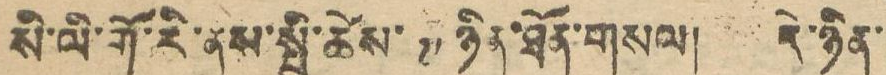སི་ལི་གོ་རི་ནས་སྤྱི་ཚེས་ ༧ ཉིན་ཐོན་གསལ། དེ་ཉིན་
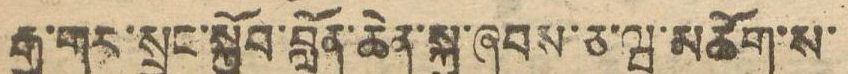རྒྱ་གར་སྲུང་སྐྱོབ་བློན་ཆེན་སྐུ་ཞབས་ཅ་ཝ་མཆོག་ས་
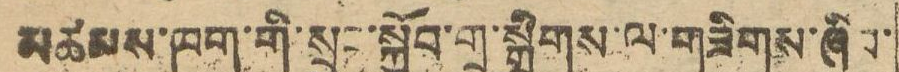མཚམས་ཁག་གི་སྲུང་སྐྱོབ་གྲ་སྒྲིགས་ལ་གཟིགས་ཞིབ་
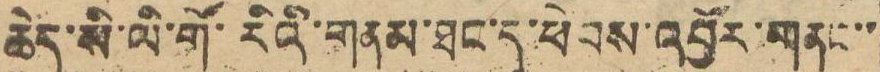ཆེད་སི་ལི་གོ་རིའི་གནམ་ཐང་དུ་ཕེབས་འབྱོར་གནང་་
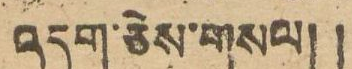འདུག་ཅེས་གསལ། །
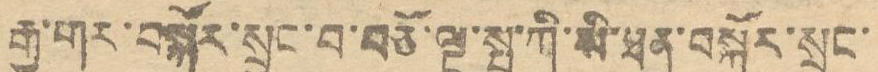རྒྱ་གར་བསྐོར་སྲུང་བ་བཅོ་ལྔ་སྤ་ཀི་སི་ཐན་བསྐོར་སྲུང་
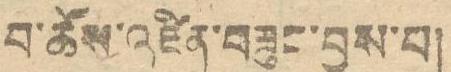བ་ཚོས་འཛིན་བཟུང་བྱས་པ།
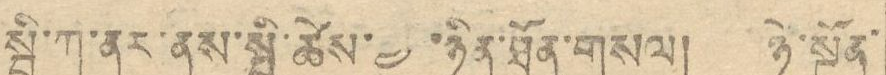སྦི་ཀ་ནར་ན་སྤྱི་ཚེས་ ༤ ཉིན་ཐོན་གསལ། ཉེ་སྔོན་
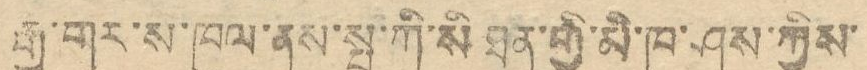རྒྱ་གར་ས་ཁུལ་ནས་སྤ་ཀི་སི་ཐན་གྱི་མི་ཁ་ཤས་ཀྱིས་
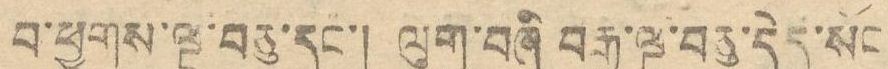བ་ཕྱུགས་ལྔ་བཅུ་དང་། ལུག་བཞི བརྒྱ་ལྔ་བཅུ་དེད་སོང
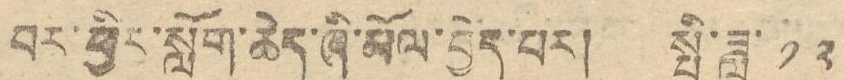བར་ཕྱིར་སློག་ཆེད་ཞི་མོལ་བྱེད་པར། སྤྱི་ཟླ་ ༡༢
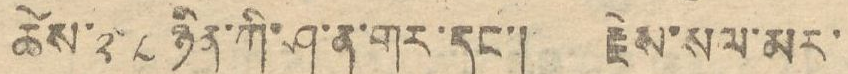ཚེས་ ༢༨ ཉིན་ཀི་ཤ་ན་གར་དང་། རྗེས་སལ་མར་
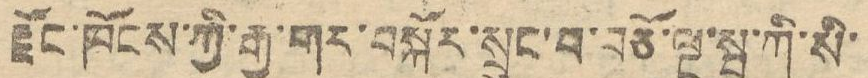རྫོང་ཁོངས་ཀྱི་རྒྱ་གར་བསྐོར་སྲུང་བ་བཅོ་ལྔ་སྤ་ཀི་སི་
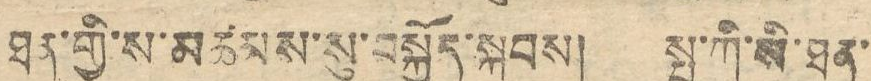ཐན་གྱི་ས་མཚམས་སུ་བསྐྱོད་སྐབས། སྤ་ཀི་སི་ཐན་
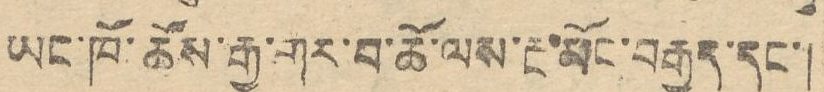ཡང་ཁོ་ཚོས་རྒྱ་གར་བ་ཆོ་ལས་རྔ་མོང་བརྒྱད་དང་།
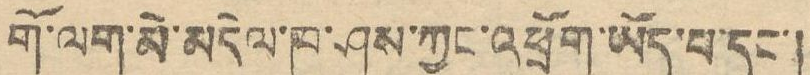གོ་ལག་མེ་མདེལ་ཁ་ཤས་ཀྱང་འཕྲོག་ཡོད་པ་དང་།
